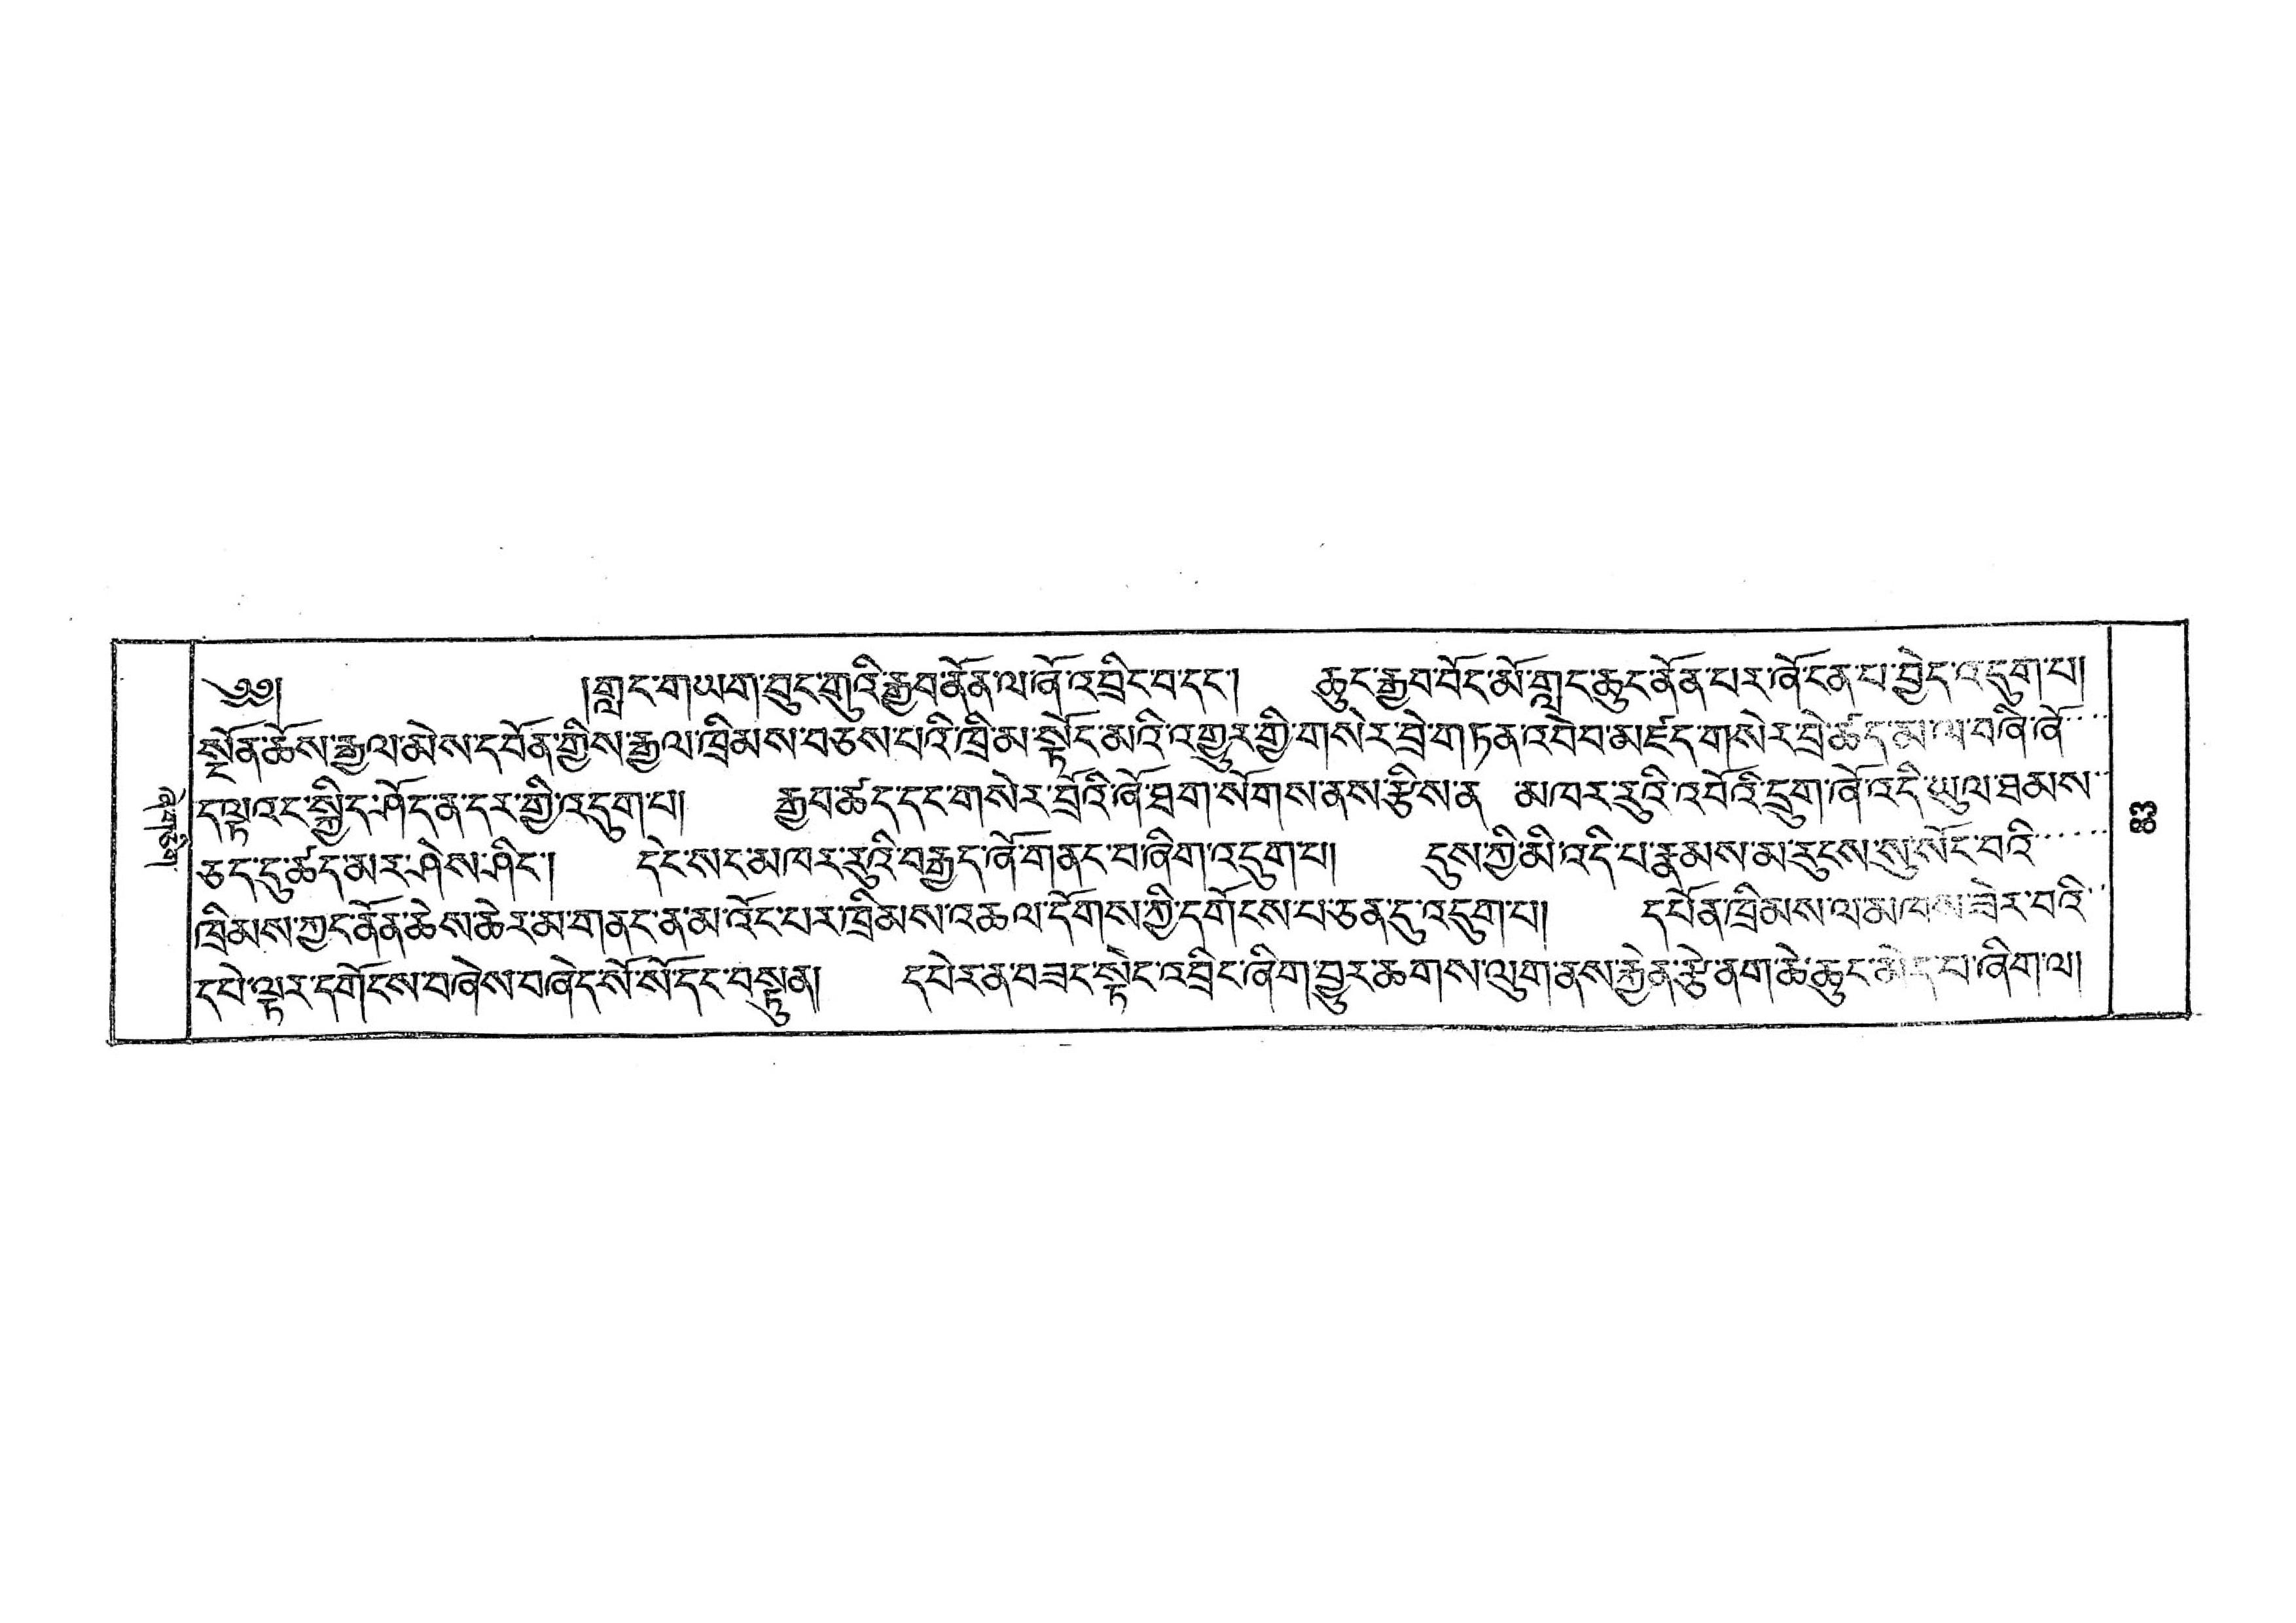ཞེ་གཅིག་
༄༅།  །གླང་གཡག་བུང་གུའི་རྒྱབ་ནོན་ལ་ཞོ་འབྲིང་བ་དང་། ཆུང་རྒྱབ་བོང་མོ་གླང་ཆུང་ནོན་པར་ཞོ་ངན་པ་བྱེད་འདུག་པ།
སྔོན་ཆོས་རྒྱལ་མེས་དབོན་གྱིས་རྒྱལ་ཁྲིམས་བཅས་པའི་ཁྲི་མ་སྟོང་མའི་འགྱུར་གྱི་གསེར་བྲེ་གཏན་འབེབ་མཛད་གསེར་བྲེ་ཚད་མ་ལ་བཞི་ཞོ་་་་
ད་ལྟའང་སྐྱིད་ཤོད་ན་དར་གྱི་འདུག་པ། རྒྱབ་ཚད་དང་གསེར་བྲོའི་ཞོ་ཐག་སོགས་ནས་རྩིས་ན་ ་མཁར་རུའི་འབོའི་དྲུག་ཞོ་འདི་ཡུལ་ཐམས་་
ཅད་དུ་ཚད་མར་ཤེས་ཤིང་། དེང་སང་མཁར་རུའི་བརྒྱད་ཞོ་གནང་བ་ཞིག་འདུག་པ། དུས་ཀྱི་མི་འདི་པ་རྣམས་མ་རུངས་སུ་སོང་བའི་་་་་
ཁྲིམས་ཀྱང་ནོན་ཆེས་ཆེར་མ་གནང་ན་མ་འོང་པར་ཁྲིམས་འཆལ་དོགས་ཀྱི་དགོངས་པ་ཅན་དུ་འདུག་པ། དཔོན་ཁྲིམས་ལ་མཁས་ཟེར་བའི་་
དཔེ་ལྟར་དགོངས་བཞེས་བཞེད་སོ་སོ་དང་བསྟུན། དཔེར་ན་བཟང་སྟེང་འབྲིང་ཞིག་བྱུར་ཆགས་ལུག་ནས་རྐྱེན་རྩེ་ནག་ཆེ་ཆུང་མེད་པ་ཞིག་ལ།
